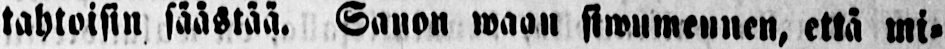tahtoisin säästää. Sanon waan siwumennen, että mi-
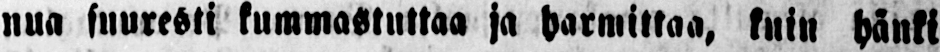nua suuresti kummastuttaa ja harmittaa, kuin hänki
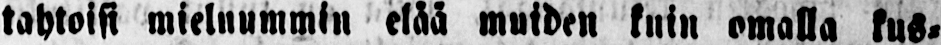tahtoisi mieluummin elää muiden kuin omalla kus-
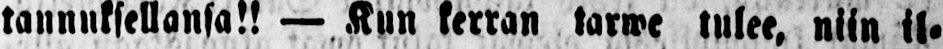tannuksellansa!! — Kun kerran tarwe tule,, niin il-
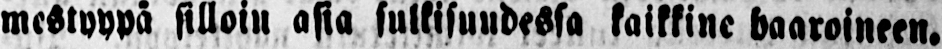mestyypä silloin asia sulkisuudessa kaikkine haaroineen.
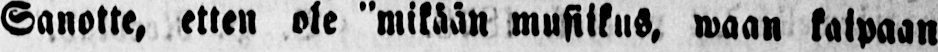Sanotte, etten ole "mikään musiikus, vaan kaipaan
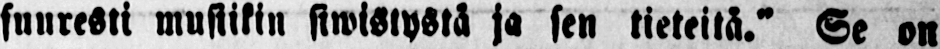suuresti musiikin siwistystä ja sen tieteitä." Se on
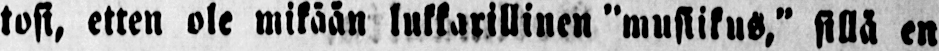tosi, etten ole mikään lukkarillinen "musiikus," sillä en
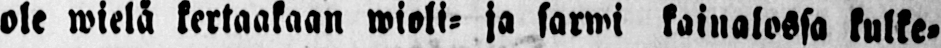ole wielä kertaakaan wioli- ja sarwi kainalossa kulke-
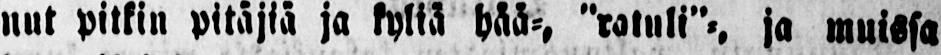nut pitkin pitäjiä ja kyliä hää-, "ratuli"-, ja muissa
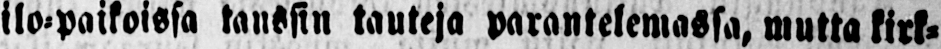ilo-paikoissa tanssin tauteja parantelemassa, mutta kirk-
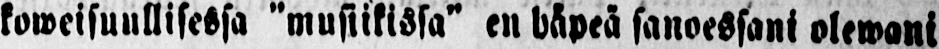koweisuullisessa "musiikissa" en häpeä sanoessani olewani
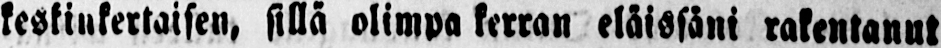keskinkertaisen, sillä olimpa kerran eläissäni rakentanut
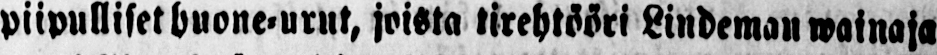piipulliset huone-urut, joista tirehtööri Lindeman wainaja
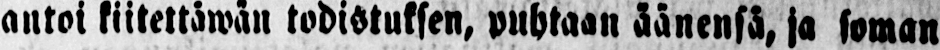antoi kiitettäwän todistuksen, puhtaan äänensä, ja soman
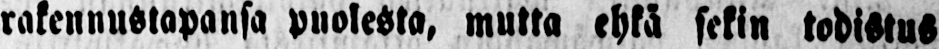rakennustapansa puolesta, mutta ehkä sekin todistus
